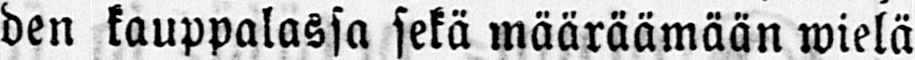den kauppalassa sekä määräämään wielä
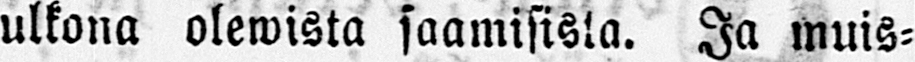ulkona olewista saamisisla. Ja muis-
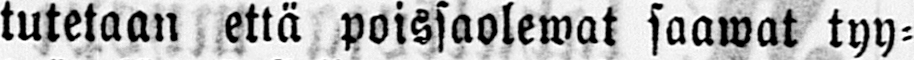tutetaan että poissaolewat saawat tyy-
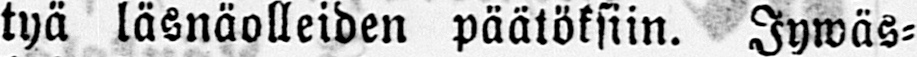tyä läsnäolleiden päätöksiin. Jywäs-
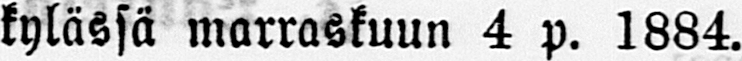kylässä marraskuun 4 p. 1884.
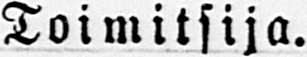Toimitsija.
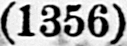(1356)
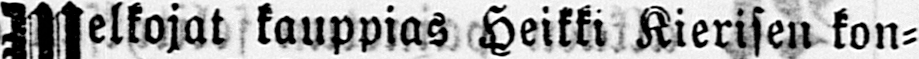Welkojat kauppias Heikki Kierisen kon-
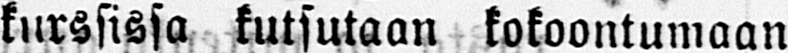kurssissa kutsutaan kokoontumaan
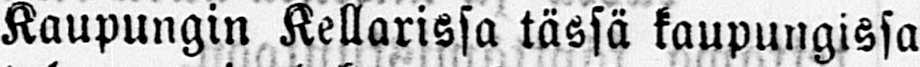Kaupungin Kellarissa tässä kaupungissa
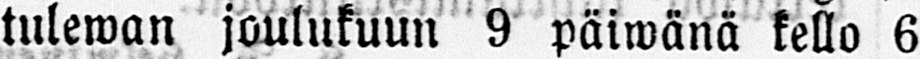tulewan joulukuun 9 päiwänä kello 6
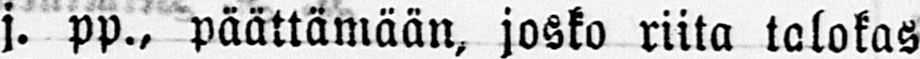j. pp., päättämään, josko riita talokas
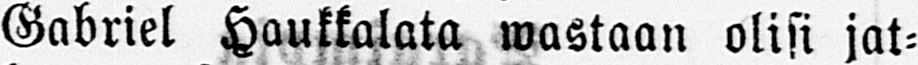Gabriel Haukkalata wastaan olisi jat-
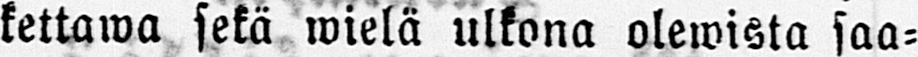kettawa sekä wielä ulkona olewista saa-
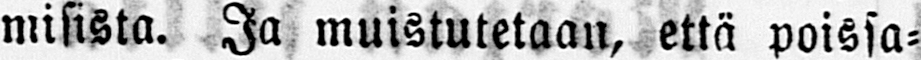misista. Ja muistutetaan, että poissa-
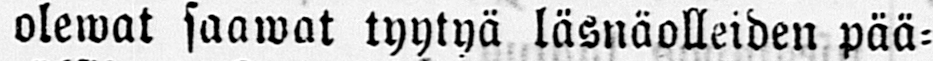olewat saawat tyytyä läsnäolleiden pää-
